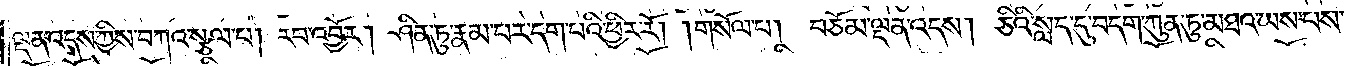ལྡན་འདས་ཀྱིས་བཀའ་སྩལ་པ། རབ་འབྱོར། ཤིན་ཏུ་རྣམ་པར་དག་པའི་ཕྱིར་རོ། །གསོལ་པ། བཅོམ་ལྡན་འདས། ཅིའི་སླད་དུ་བདག་ཀུན་ཏུ་མཐའ་ཡས་པས་
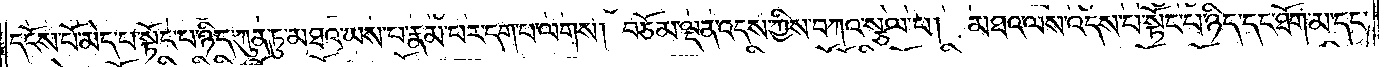དངོས་པོ་མེད་པ་སྟོང་པ་ཉིད་ཀུན་ཏུ་མཐའ་ཡས་པ་རྣམ་པར་དག་པ་ལགས། བཅོམ་ལྡན་འདས་ཀྱིས་བཀའ་སྩལ་པ། མཐའ་ལས་འདས་པ་སྟོང་པ་ཉིད་དང་ཐོག་མ་དང་
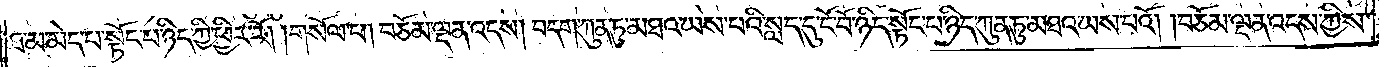ཐ་མ་མེད་པ་སྟོང་པ་ཉིད་ཀྱི་ཕྱིར་རོ། །གསོལ་པ། བཅོམ་ལྡན་འདས། བདག་ཀུན་ཏུ་མཐའ་ཡས་པའི་སླད་དུ་ངོ་བོ་ཉིད་སྟོང་པ་ཉིད་ཀུན་ཏུ་མཐའ་ཡས་པའོ། །བཅོམ་ལྡན་འདས་ཀྱིས་
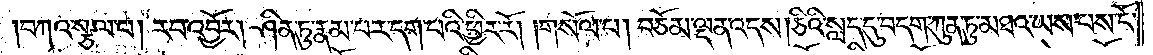བཀའ་སྩལ་པ། རབ་འབྱོར། ཤིན་ཏུ་རྣམ་པར་དག་པའི་ཕྱིར་རོ། །གསོལ་པ། བཅོམ་ལྡན་འདས། ཅིའི་སླད་དུ་བདག་ཀུན་ཏུ་མཐའ་ཡས་པས་ངོ་
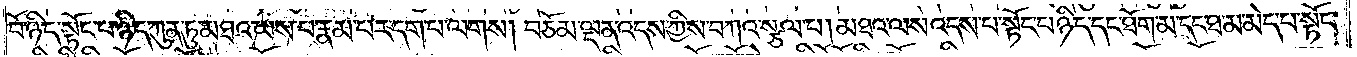བོ་ཉིད་སྟོང་པ་ཉིད་ཀུན་ཏུ་མཐའ་ཡས་པ་རྣམ་པར་དག་པ་ལགས། བཅོམ་ལྡན་འདས་ཀྱིས་བཀའ་སྩལ་པ། མཐའ་ལས་འདས་པ་སྟོང་པ་ཉིད་དང་ཐོག་མ་དང་ཐ་མ་མེད་པ་སྟོང་
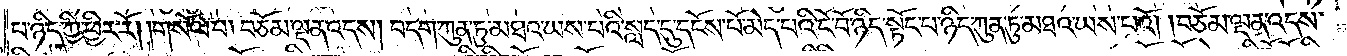པ་ཉིད་ཀྱི་ཕྱིར་རོ། །གསོལ་པ། བཅོམ་ལྡན་འདས། བདག་ཀུན་ཏུ་མཐའ་ཡས་པའི་སླད་དུ་དངོས་པོ་མེད་པའི་ངོ་བོ་ཉིད་སྟོང་པ་ཉིད་ཀུན་ཏུ་མཐའ་ཡས་པའོ། །བཅོམ་ལྡན་འདས་
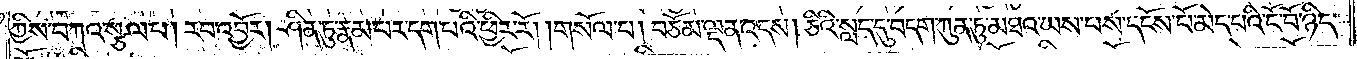ཀྱིས་བཀའ་སྩལ་པ། རབ་འབྱོར། ཤིན་ཏུ་རྣམ་པར་དག་པའི་ཕྱིར་རོ། །གསོལ་པ། བཅོམ་ལྡན་འདས། ཅིའི་སླད་དུ་བདག་ཀུན་ཏུ་མཐའ་ཡས་པས་དངོས་པོ་མེད་པའི་ངོ་བོ་ཉིད་
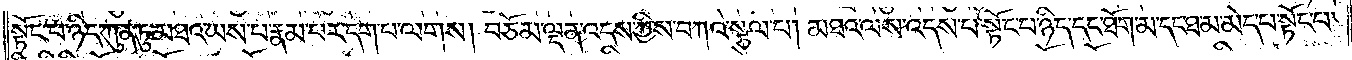སྟོང་པ་ཉིད་ཀུན་ཏུ་མཐའ་ཡས་པ་རྣམ་པར་དག་པ་ལགས། བཅོམ་ལྡན་འདས་ཀྱིས་བཀའ་སྩལ་པ། མཐའ་ལས་འདས་པ་སྟོང་པ་ཉིད་དང་ཐོག་མ་དང་ཐ་མ་མེད་པ་སྟོང་པ་
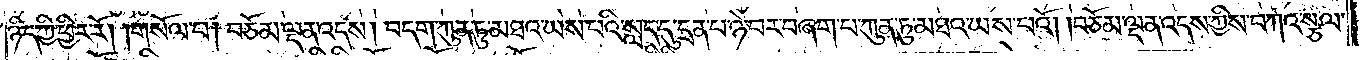ཉིད་ཀྱི་ཕྱིར་རོ། །གསོལ་པ། བཅོམ་ལྡན་འདས། བདག་ཀུན་ཏུ་མཐའ་ཡས་པའི་སླད་དུ་དྲན་པ་ཉེ་བར་བཞག་པ་ཀུན་ཏུ་མཐའ་ཡས་པའོ། །བཅོམ་ལྡན་འདས་ཀྱིས་བཀའ་སྩལ་
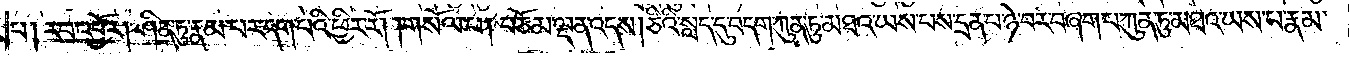པ། རབ་འབྱོར། ཤིན་ཏུ་རྣམ་པར་དག་པའི་ཕྱིར་རོ། གསོལ་པ། བཅོམ་ལྡན་འདས། ཅིའི་སླད་དུ་བདག་ཀུན་ཏུ་མཐའ་ཡས་པས་དྲན་པ་ཉེ་བར་བཞག་པ་ཀུན་ཏུ་མཐའ་ཡས་པ་རྣམ་
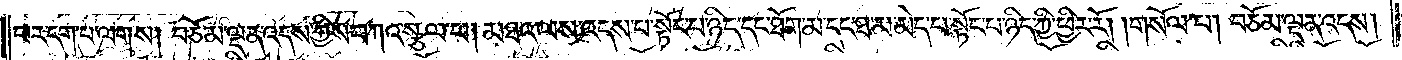པར་དག་པ་ལགས། བཅོམ་ལྡན་འདས་ཀྱིས་བཀའ་སྩལ་པ། མཐའ་ལས་འདས་པ་སྟོང་པ་ཉིད་དང་ཐོག་མ་དང་ཐ་མ་མེད་པ་སྟོང་པ་ཉིད་ཀྱི་ཕྱིར་རོ། །གསོལ་པ། བཅོམ་ལྡན་འདས།
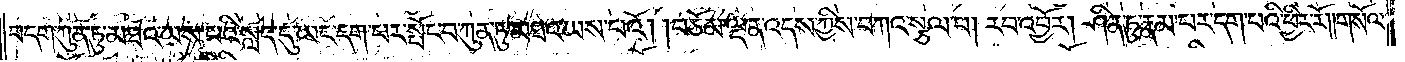བདག་ཀུན་ཏུ་མཐའ་ཡས་པའི་སླད་དུ་ཡང་དག་པར་སྤོང་བ་ཀུན་ཏུ་མཐའ་ཡས་པའོ། །བཅོམ་ལྡན་འདས་ཀྱིས་བཀའ་སྩལ་པ། རབ་འབྱོར། ཤིན་ཏུ་རྣམ་པར་དག་པའི་ཕྱིར་རོ། །གསོལ་
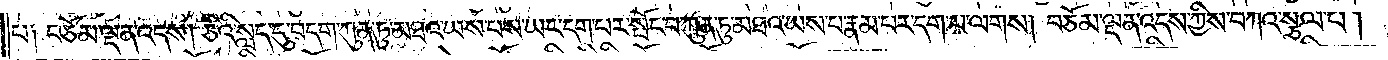པ༑ བཅོམ་ལྡན་འདས། ཅིའི་སླད་དུ་བདག་ཀུན་ཏུ་མཐའ་ཡས་པས། ཡང་དག་པར་སྤོང་བ་ཀུན་ཏུ་མཐའ་ཡས་པ་རྣམ་པར་དག་པ་ལགས། བཅོམ་ལྡན་འདས་ཀྱིས་བཀའ་སྩལ་པ།
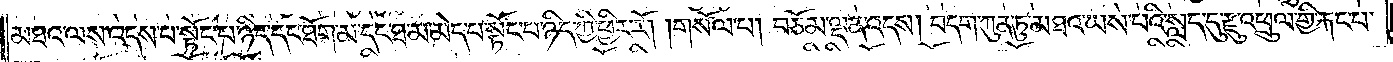མཐའ་ལས་འདས་པ་སྟོང་པ་ཉིད་དང་ཐོག་མ་དང་ཐ་མ་མེད་པ་སྟོང་པ་ཉིད་ཀྱི་ཕྱིར་རོ། །གསོལ་པ། བཅོམ་ལྡན་འདས། བདག་ཀུན་ཏུ་མཐའ་ཡས་པའི་སླད་དུ་རྫུ་འཕྲུལ་གྱི་རྐང་པ་
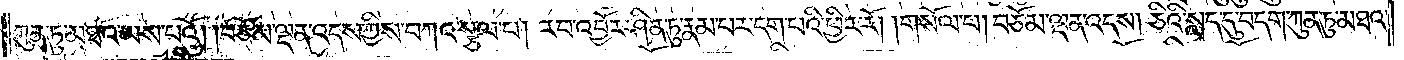ཀུན་ཏུ་མཐའ་ཡས་པའོ། །བཅོམ་ལྡན་འདས་ཀྱིས་བཀའ་སྩལ་པ། རབ་འབྱོར་ཤིན་ཏུ་རྣམ་པར་དག་པའི་ཕྱིར་རོ། །གསོལ་པ། བཅོམ་ལྡན་འདས། ཅིའི་སླད་དུ་བདག་ཀུན་ཏུ་མཐའ་
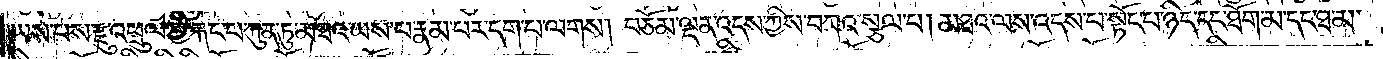ཡས་པས་རྫུ་འཕྲུལ་གྱི་རྐང་པ་ཀུན་ཏུ་མཐའ་ཡས་པ་རྣམ་པར་དག་པ་ལགས། བཅོམ་ལྡན་འདས་ཀྱིས་བཀའ་སྩལ་པ། མཐའ་ལས་འདས་པ་སྟོང་པ་ཉིད་དང་ཐོག་མ་དང་ཐ་མ་
